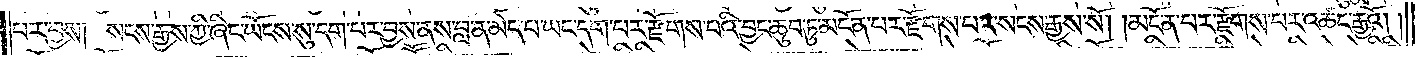པར་བྱས། སངས་རྒྱས་ཀྱི་ཞིང་ཡོངས་སུ་དག་པར་བྱས་ནས། བླ་ན་མེད་པ་ཡང་དག་པར་རྫོགས་པའི་བྱང་ཆུབ་ཏུ་མངོན་པར་རྫོགས་པར་སངས་རྒྱས་སོ། །མངོན་པར་རྫོགས་པར་འཚང་རྒྱའོ། །
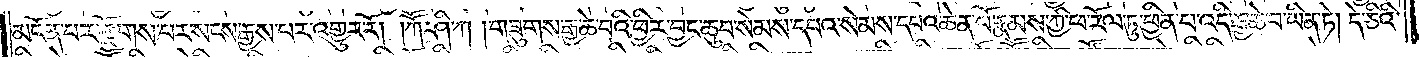མངོན་པར་རྫོགས་པར་སངས་རྒྱས་པར་འགྱུར་རོ། །ཀཽ་ཤི་ཀ །གཟུགས་རྒྱ་ཆེ་བའི་ཕྱིར་བྱང་ཆུབ་སེམས་དཔའ་སེམས་དཔའ་ཆེན་པོ་རྣམས་ཀྱི་ཕ་རོལ་ཏུ་ཕྱིན་པ་འདི་རྒྱ་ཆེ་བ་ཡིན་ཏེ། དེ་ཅིའི་
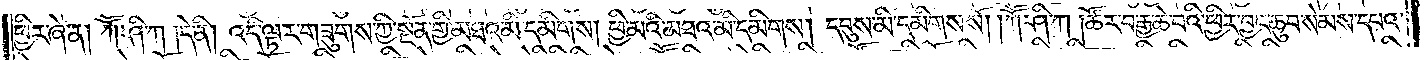ཕྱིར་ཞེ་ན། ཀཽ་ཤི་ཀ །དེ་ནི། འདི་ལྟར་གཟུགས་ཀྱི་སྔོན་གྱི་མཐའ་མི་དམིགས། ཕྱི་མའི་མཐའ་མི་དམིགས། དབུས་མི་དམིགས་སོ། །ཀཽ་ཤི་ཀ །ཚོར་བ་རྒྱ་ཆེ་བའི་ཕྱིར་བྱང་ཆུབ་སེམས་དཔའ་
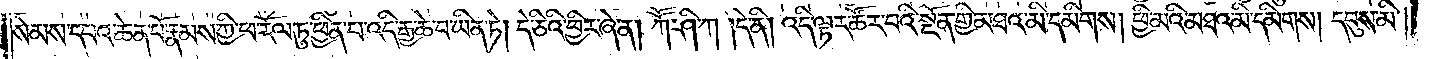སེམས་དཔའ་ཆེན་པོ་རྣམས་ཀྱི་ཕ་རོལ་ཏུ་ཕྱིན་པ་འདི་རྒྱ་ཆེ་བ་ཡིན་ཏེ། དེ་ཅིའི་ཕྱིར་ཞེ་ན། ཀཽ་ཤི་ཀ །དེ་ནི། འདི་ལྟར་ཚོར་བའི་སྔོན་གྱི་མཐའ་མི་དམིགས། ཕྱི་མའི་མཐའ་མི་དམིགས། དབུས་མི་
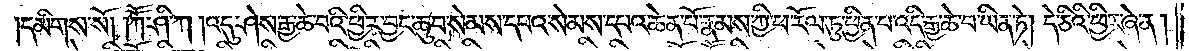དམིགས་སོ༎ ཀཽ་ཤི་ཀ །འདུ་ཤེས་རྒྱ་ཆེ་བའི་ཕྱིར་བྱང་ཆུབ་སེམས་དཔའ་སེམས་དཔའ་ཆེན་པོ་རྣམས་ཀྱི་ཕ་རོལ་ཏུ་ཕྱིན་པ་འདི་རྒྱ་ཆེ་བ་ཡིན་ཏེ། དེ་ཅིའི་ཕྱིར་ཞེ་ན།
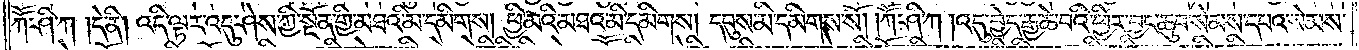ཀཽ་ཤི་ཀ །དེ་ནི། འདི་ལྟར་འདུ་ཤེས་ཀྱི་སྔོན་གྱི་མཐའ་མི་དམིགས། ཕྱི་མའི་མཐའ་མི་དམིགས། དབུས་མི་དམིགས་སོ། །ཀཽ་ཤི་ཀ །འདུ་བྱེད་རྒྱ་ཆེ་བའི་ཕྱིར་བྱང་ཆུབ་སེམས་དཔའ་སེམས་
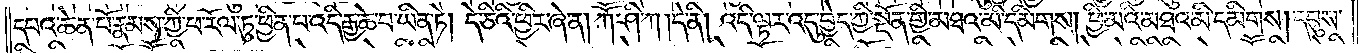དཔའ་ཆེན་པོ་རྣམས་ཀྱི་ཕ་རོལ་ཏུ་ཕྱིན་པ་འདི་རྒྱ་ཆེ་བ་ཡིན་ཏེ། དེ་ཅིའི་ཕྱིར་ཞེ་ན། ཀཽ་ཤི་ཀ །དེ་ནི། འདི་ལྟར་འདུ་བྱེད་ཀྱི་སྔོན་གྱི་མཐའ་མི་དམིགས། ཕྱི་མའི་མཐའ་མི་དམིགས། དབུས་
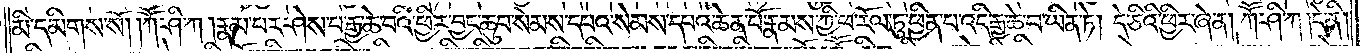མི་དམིགས་སོ། །ཀཽ་ཤི་ཀ །རྣམ་པར་ཤེས་པ་རྒྱ་ཆེ་བའི་ཕྱིར་བྱང་ཆུབ་སེམས་དཔའ་སེམས་དཔའ་ཆེན་པོ་རྣམས་ཀྱི་ཕ་རོལ་ཏུ་ཕྱིན་པ་འདི་རྒྱ་ཆེ་བ་ཡིན་ཏེ། དེ་ཅིའི་ཕྱིར་ཞེ་ན། ཀཽ་ཤི་ཀ །དེ་ནི།
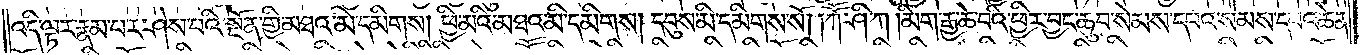འདི་ལྟར་རྣམ་པར་ཤེས་པའི་སྔོན་གྱི་མཐའ་མི་དམིགས། ཕྱི་མའི་མཐའ་མི་དམིགས། དབུས་མི་དམིགས་སོ། །ཀཽ་ཤི་ཀ །མིག་རྒྱ་ཆེ་བའི་ཕྱིར། བྱང་ཆུབ་སེམས་དཔའ་སེམས་དཔའ་ཆེན་
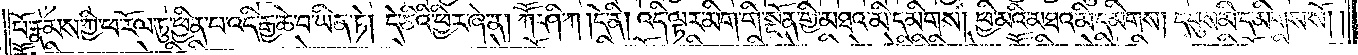པོ་རྣམས་ཀྱི་ཕ་རོལ་ཏུ་ཕྱིན་པ་འདི་རྒྱ་ཆེ་བ་ཡིན་ཏེ། དེ་ཅིའི་ཕྱིར་ཞེ་ན། ཀཽ་ཤི་ཀ །དེ་ནི། འདི་ལྟར་མིག་གི་སྔོན་གྱི་མཐའ་མི་དམིགས། ཕྱི་མའི་མཐའ་མེད་དམིགས། དབུས་མི་དམིགས་སོ། །
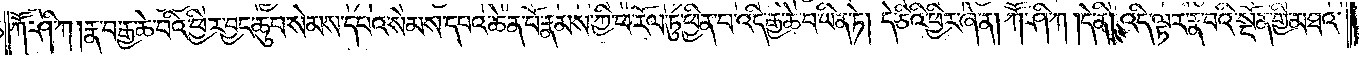ཀཽ་ཤི་ཀ །རྣ་བ་རྒྱ་ཆེ་བའི་ཕྱིར་བྱང་ཆུབ་སེམས་དཔའ་སེམས་དཔའ་ཆེན་པོ་རྣམས་ཀྱི་ཕ་རོལ་ཏུ་ཕྱིན་པ་འདི་རྒྱ་ཆེ་བ་ཡིན་ཏེ། དེ་ཅིའི་ཕྱིར་ཞེ་ན། ཀཽ་ཤི་ཀ །དེ་ནི། འདི་ལྟར་རྣ་བའི་སྔོན་གྱི་མཐའ་
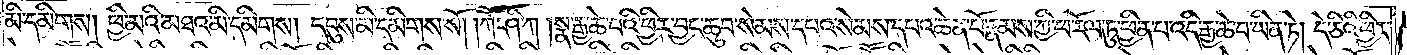མི་དམིགས། ཕྱི་མའི་མཐའ་མི་དམིགས། དབུས་མི་དམིགས་སོ། །ཀཽ་ཤི་ཀ །སྣ་རྒྱ་ཆེ་བའི་ཕྱིར་བྱང་ཆུབ་སེམས་དཔའ་སེམས་དཔའ་ཆེན་པོ་རྣམས་ཀྱི་ཕ་རོལ་ཏུ་ཕྱིན་པ་འདི་རྒྱ་ཆེ་བ་ཡིན་ཏེ། དེ་ཅིའི་ཕྱིར་
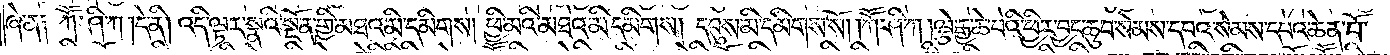ཞེ་ན། ཀཽ་ཤི་ཀ །དེ་ནི། འདི་ལྟར་སྣའི་སྔོན་གྱི་མཐའ་མི་དམིགས། ཕྱི་མའི་མཐའ་མི་དམིགས། དབུས་མི་དམིགས་སོ། །ཀཽ་ཤི་ཀ །ལྕེ་རྒྱ་ཆེ་བའི་ཕྱིར་བྱང་ཆུབ་སེམས་དཔའ་སེམས་དཔའ་ཆེན་པོ་
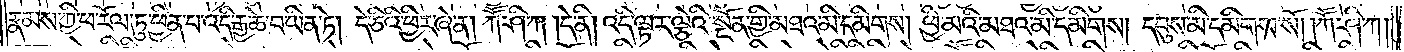རྣམས་ཀྱི་ཕ་རོལ་ཏུ་ཕྱིན་པ་འདི་རྒྱ་ཆེ་བ་ཡིན་ཏེ། དེ་ཅིའི་ཕྱིར་ཞེ་ན། ཀཽ་ཤི་ཀ །དེ་ནི། འདི་ལྟར་ལྕེའི་སྔོན་གྱི་མཐའ་མི་དམིགས། ཕྱི་མའི་མཐའ་མི་དམིགས། དབུས་མི་དམིགས་སོ། །ཀཽ་ཤི་ཀ།
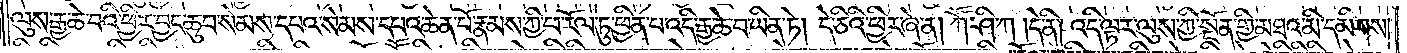ལུས་རྒྱ་ཆེ་བའི་ཕྱིར་བྱང་ཆུབ་སེམས་དཔའ་སེམས་དཔའ་ཆེན་པོ་རྣམས་ཀྱི་ཕ་རོལ་ཏུ་ཕྱིན་པ་འདི་རྒྱ་ཆེ་བ་ཡིན་ཏེ། དེ་ཅིའི་ཕྱིར་ཞེ་ན། ཀཽ་ཤི་ཀ །དེ་ནི། འདི་ལྟར་ལུས་ཀྱི་སྔོན་གྱི་མཐའ་མི་དམིགས།
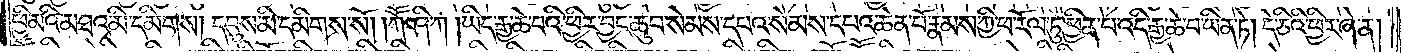ཕྱི་མའི་མཐའ་མི་དམིགས། དབུས་མི་དམིགས་སོ། །ཀཽ་ཤི་ཀ །ཡིད་རྒྱ་ཆེ་བའི་ཕྱིར་བྱང་ཆུབ་སེམས་དཔའ་སེམས་དཔའ་ཆེན་པོ་རྣམས་ཀྱི་ཕ་རོལ་ཏུ་ཕྱིན་པ་འདི་རྒྱ་ཆེ་བ་ཡིན་ཏེ། དེ་ཅིའི་ཕྱིར་ཞེ་ན།
